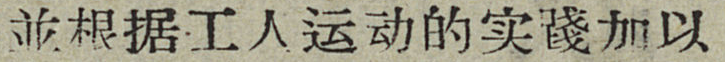並根据工人运动的实踐加以
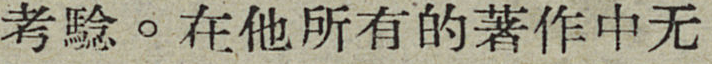考騐。在他所有的著作中无
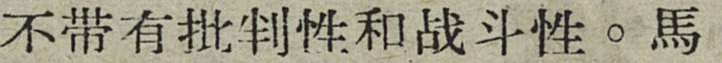不带有批判性和战斗性。馬
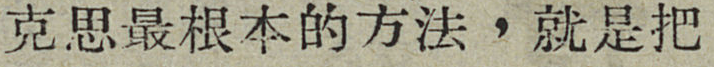克思最根本的方法，就是把
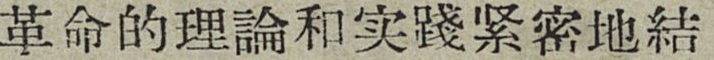革命的理論和实踐紧密地結
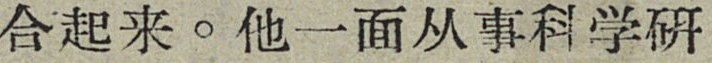合起来。他一面从事科学研
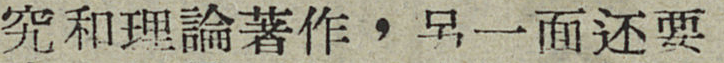究和理論著作，另一面还要
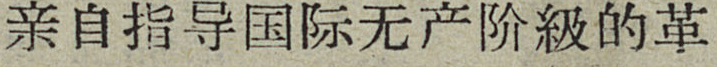亲自指导国际无产阶級的革
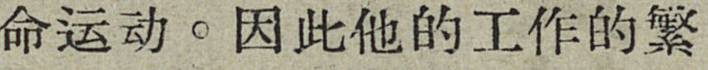命运动。因此他的工作的繁
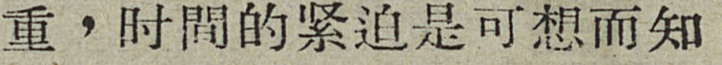重，时間的紧迫是可想而知
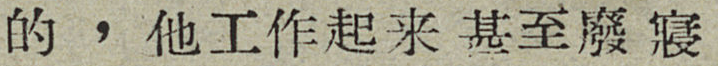的，他工作起来甚至廢寢
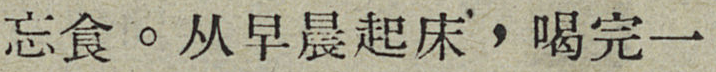忘食。从早晨起床，喝完一
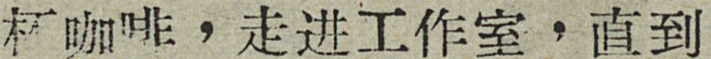杯咖啡，走进工作室，直到
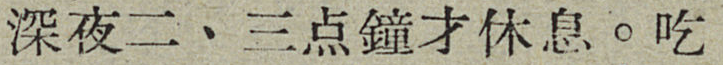深夜二、三点鐘才休息。吃
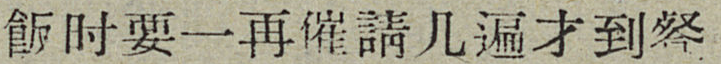飯时要一再催請几遍才到餐
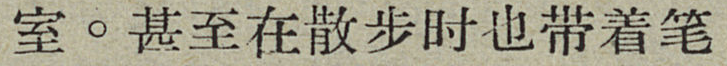室。甚至在散步时也带着笔
